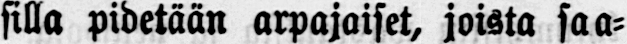silla pidetään arpajaiset, joista saa-
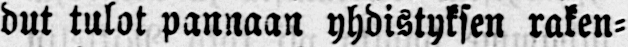dut tulot pannaan yhdistyksen raken-
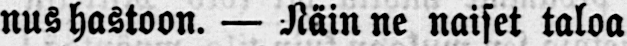nus hastoon. — Näin ne naiset taloa
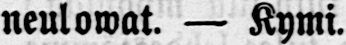neulowat. — Kymi.
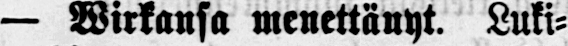— Wirkansa menettänyt. Luki-
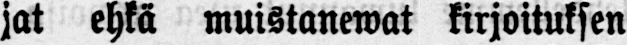jat ehkä muistanewat kirjoituksen
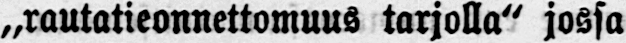„rautatieonnettomuus tarjolla" jossa
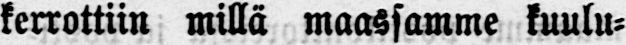kerrottiin millä maassamme kuulu-
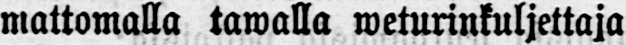mattomalla tawalla weturinkuljettaja
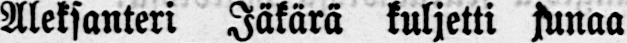Aleksanteri Jäkärä kuljetti junaa
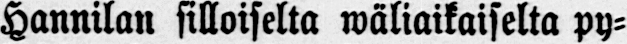Hannilan silloiselta wäliaikaiselta py-
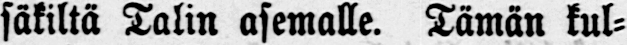säkiltä Talin asemalle. Tämän kul-
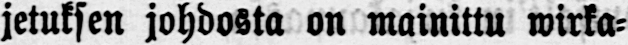jetuksen johdosta on mainittu wirka-
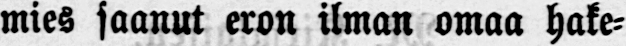mies saanut eron ilman omaa hake-
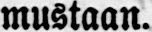mustaan.
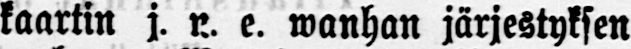kaartin j. n. e. wanhan järjestyksen
